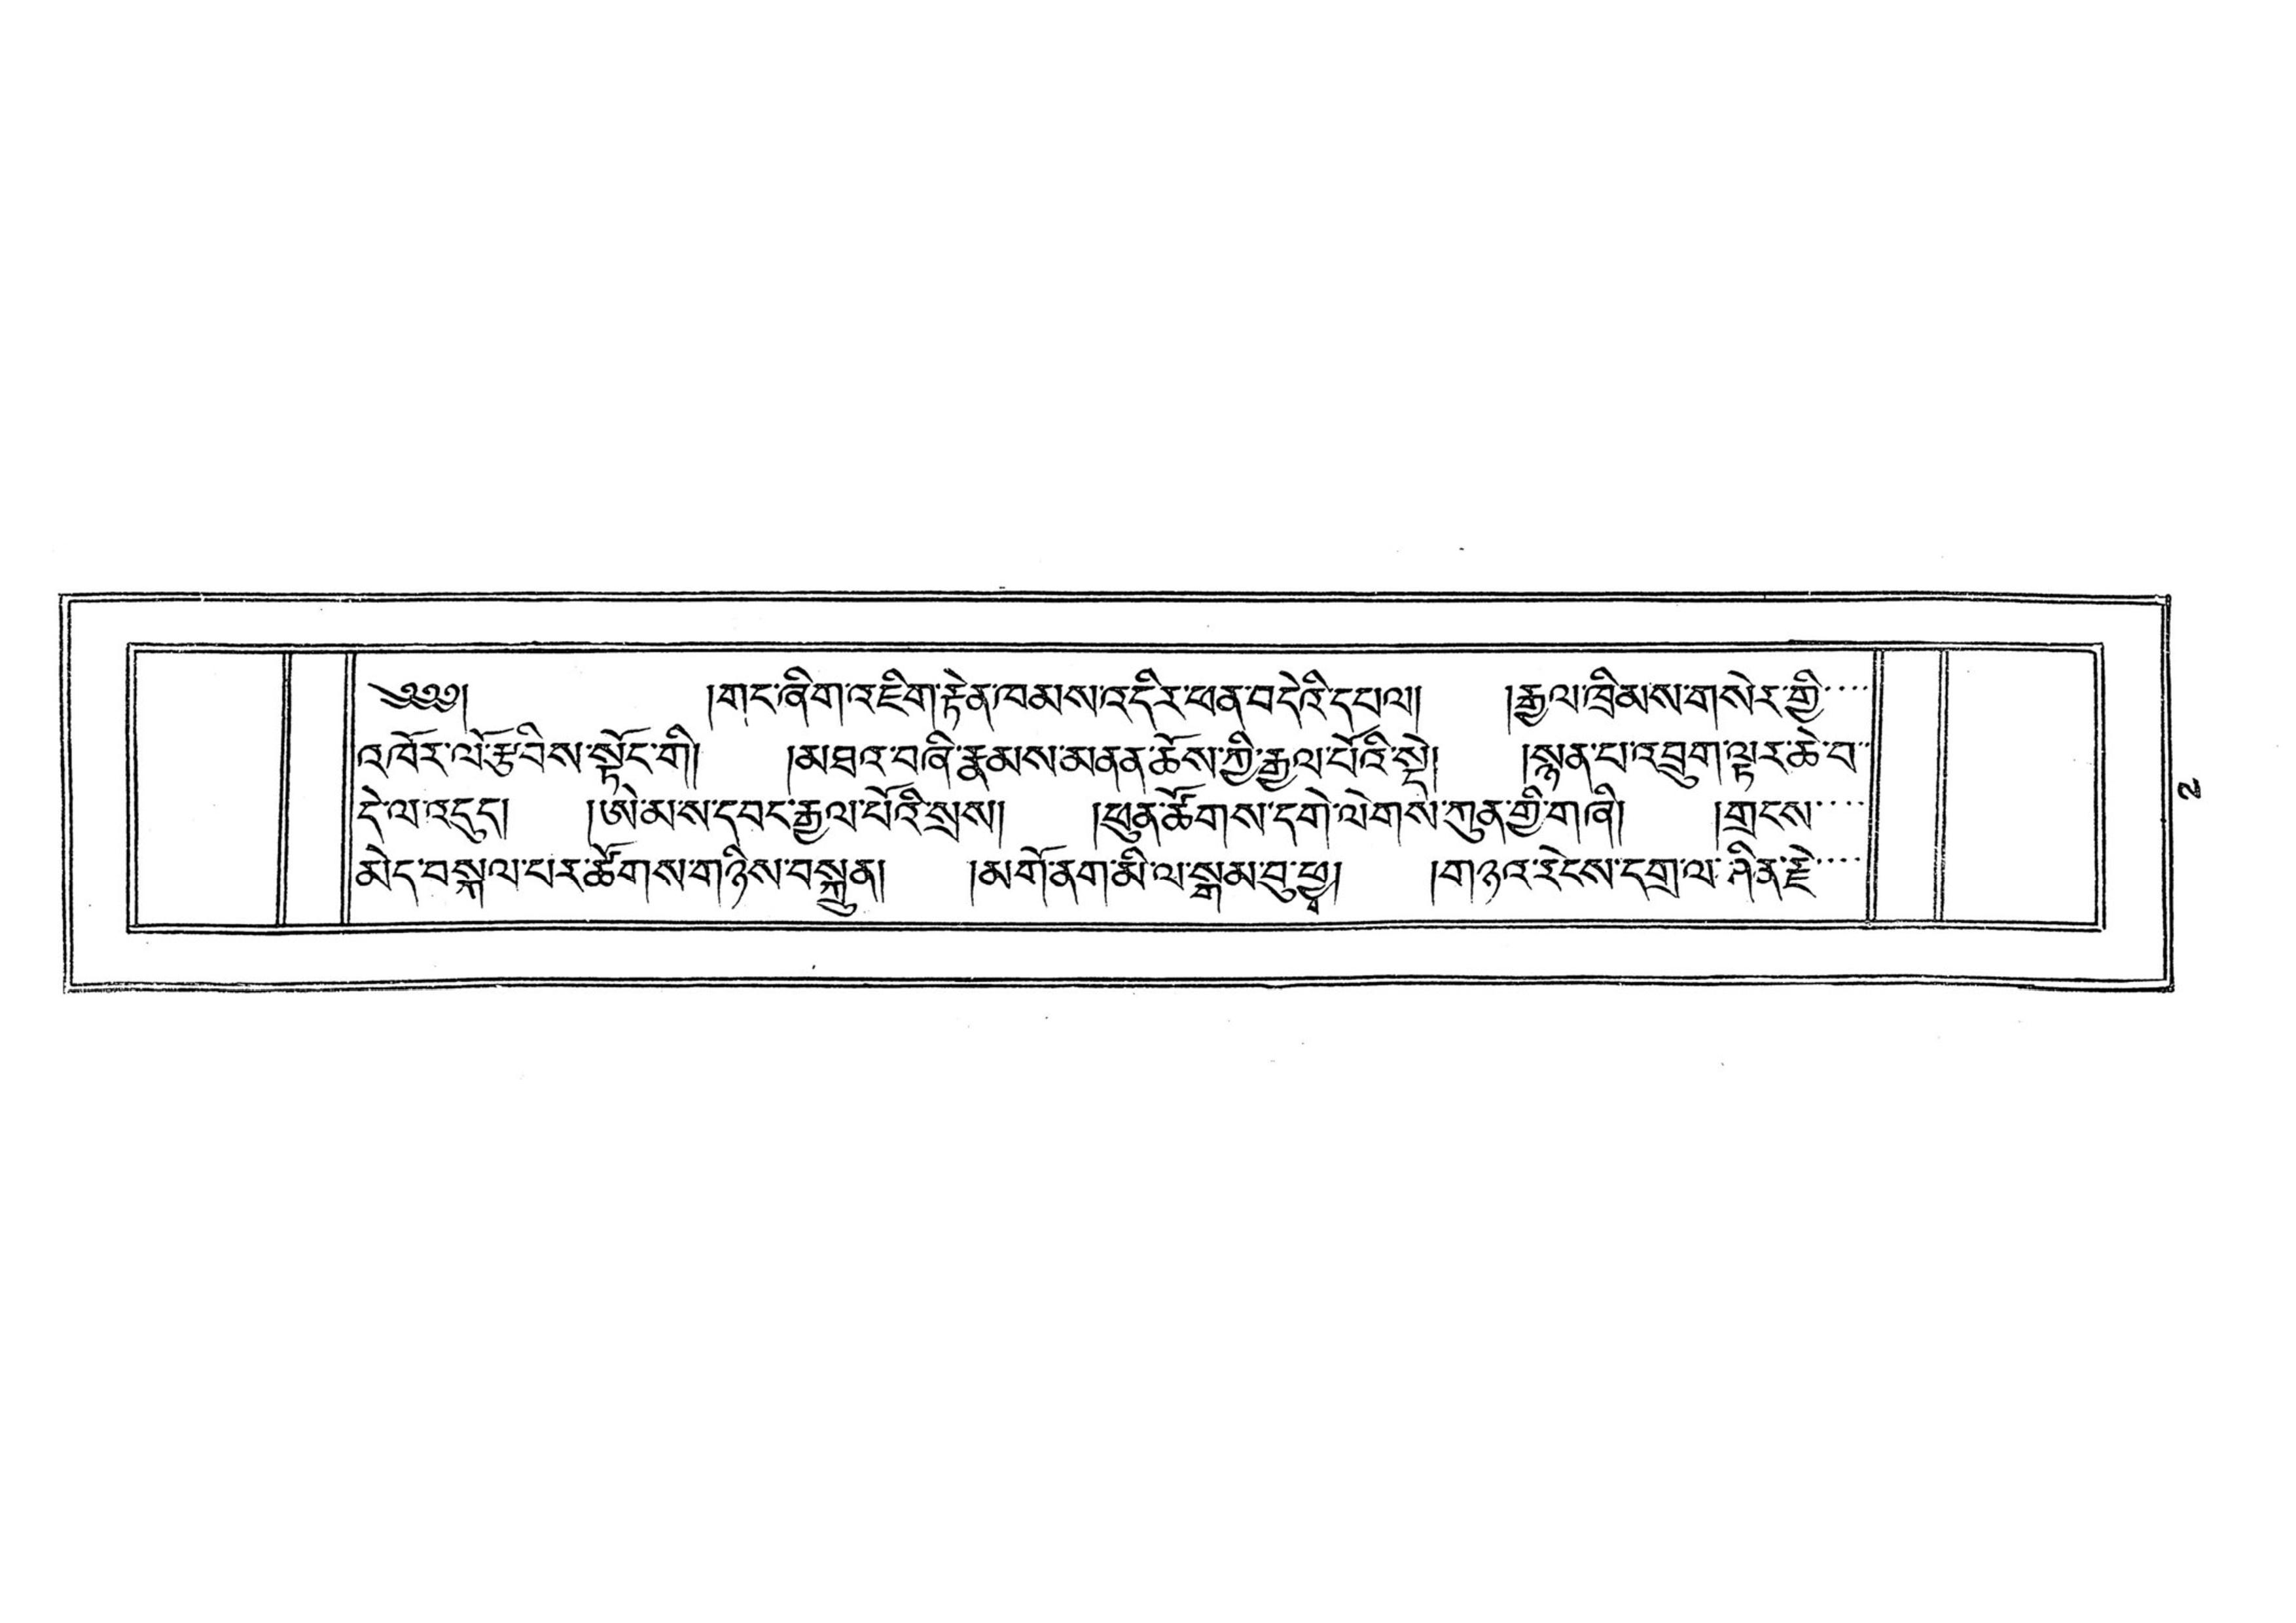༄༅༅། །གང་ཞིག་འཇིག་རྟེན་ཁམས་འདིར་ཕན་བདེའི་དཔལ། །རྒྱལ་ཁྲིམས་གསེར་གྱི་་་་
འཁོར་ལོ་རྩབིས་སྟོང་གི། །མཐའ་བཞི་རྣམས་མནན་ཆོས་ཀྱི་རྒྱལ་པོའི་སྡེ། །སྙན་པའབྲུག་ལྟར་ཆེ་བ་་
དེ་ལ་འདུད། །ཨེ་མ་ས་དབང་རྒྱལ་པོའི་སྲས། །ཕུན་ཚོགས་དགེ་ལེགས་ཀུན་གྱི་གཞི། །གྲངས་་་་
མེད་བསྐལ་པར་ཚོགས་གཉིས་བསྐྲུན། །མགོ་ནག་མི་ལ་སྒམ་བུ་ཕྱྭ། །གཉའ་རེངས་དགྲལ་ཤིན་རྗེ་་་་
